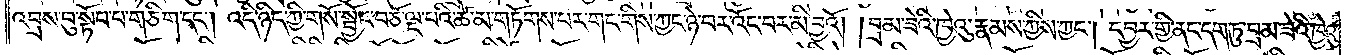འབྲས་བུ་སྟོབ་པ་གཅིག་དང༌། འདི་ཉིད་ཀྱི་གསོ་སྦྱོང་བཅོ་ལྔ་པའི་ཚེ་མ་གཏོགས་པར་གང་གིས་ཀྱང་ཉེ་བར་འོང་བར་མི་བྱའོ། །བྲམ་ཟེའི་ཁྱེའུ་རྣམས་ཀྱིས་ཀྱང༌། དབྱར་གྱི་ནང་དག་ཏུ་བྲམ་ཟེའི་ཁྱེའུ་
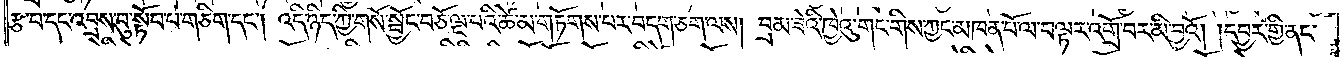རྩ་བ་དང་འབྲས་བུ་སྟོབ་པ་གཅིག་དང༌། འདི་ཉིད་ཀྱི་གསོ་སྦྱོང་བཅོ་ལྔ་པའི་ཚེ་མ་གཏོགས་པར་བདག་ཅག་ལས། བྲམ་ཟེའི་ཁྱེའུ་གང་གིས་ཀྱང་མཁན་པོ་ལ་བལྟར་འགྲོ་བར་མི་བྱའོ། །དབྱར་གྱི་ནང་
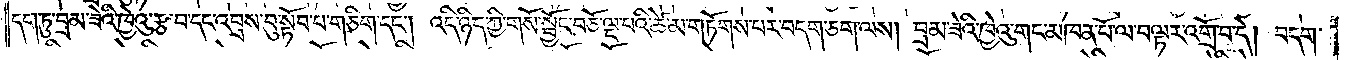དག་ཏུ་བྲམ་ཟེའི་ཁྱེའུ་རྩ་བ་དང་འབྲས་བུ་སྟོབ་པ་གཅིག་དང༌། འདི་ཉིད་ཀྱི་གསོ་སྦྱོང་བཅོ་ལྔ་པའི་ཚེ་མ་གཏོགས་པར་བདག་ཅག་ལས། བྲམ་ཟེའི་ཁྱེའུ་གང་མཁན་པོ་ལ་བལྟར་འགྲོ་བ་དེ། བདག་
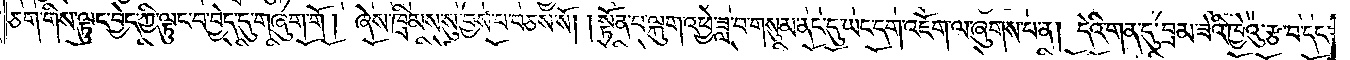ཅག་གིས་ལྟུང་བྱེད་ཀྱི་ལྟུང་བ་བྱེད་དུ་གཞུག་གོ ། ཞེས་ཁྲིམས་སུ་བྱས་པ་བཅས་སོ། །སྟོན་པ་ལྐུག་འཕྱེ་ཟླ་བ་གསུམ་ནང་དུ་ཡང་དག་འཇོག་ལ་ཞུགས་པ་ན། དེའི་གན་དུ་བྲམ་ཟེའི་ཁྱེའུ་རྩ་བ་དང་
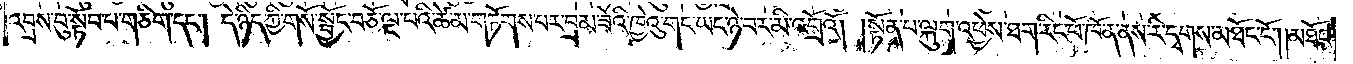འབྲས་བུ་སྟོབ་པ་གཅིག་དང༌། དེ་ཉིད་ཀྱི་གསོ་སྦྱོང་བཅོ་ལྔ་པའི་ཚེ་མ་གཏོགས་པར་བྲམ་ཟེའི་ཁྱེའུ་གང་ཡང་ཉེ་བར་མི་འགྲོའོ། །སྟོན་པ་ལྐུག་འཕྱེས་ཐག་རིང་པོ་ཁོ་ན་ནས་རི་དྭགས་མཐོང་ངོ༌། །མཐོང་
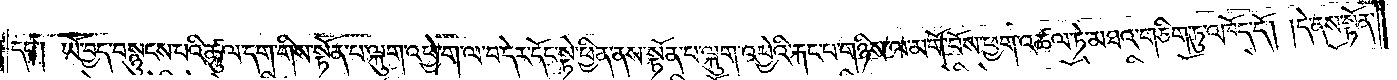དང༌། ཡོ་བྱད་བསྙུངས་པའི་ཚུལ་དག་གིས་སྟོན་པ་ལྐུག་འཕྱེ་ག་ལ་བ་དེར་དོང་སྟེ་ཕྱིན་ནས་སྟོན་པ་ལྐུག་འཕྱེའི་རྐང་པ་གཉིས་ལ་མགོ་བོས་ཕྱག་འཚལ་ཏེ་མཐའ་གཅིག་ཏུ་འཁོད་དོ། །དེ་ནས་སྟོན་
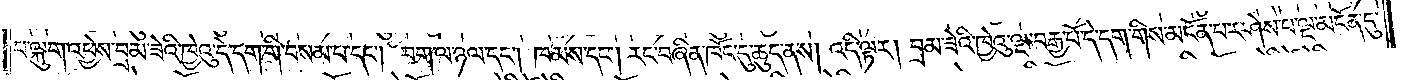པ་ལྐུག་འཕྱེས་བྲམ་ཟེའི་ཁྱེའུ་དེ་དག་གི་བསམ་པ་དང༌། བག་ལ་ཉལ་དང༌། ཁམས་དང༌། རང་བཞིན་ཁོང་དུ་ཆུད་ནས། འདི་ལྟར། བྲམ་ཟེའི་ཁྱེའུ་ལྔ་བརྒྱ་པོ་དེ་དག་གིས་མངོན་པར་ཤེས་པ་ལྔ་མངོན་དུ་
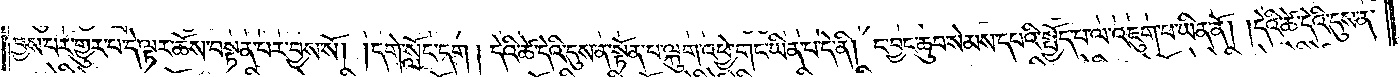བྱས་པར་གྱུར་པ་དེ་ལྟར་ཆོས་བསྟན་པར་བྱས་སོ། །དགེ་སློང་དག ། དེའི་ཚེ་དེའི་དུས་ན་སྟོན་པ་ལྐུག་འཕྱེ་གང་ཡིན་པ་དེ་ནི། ང་བྱང་ཆུབ་སེམས་དཔའི་སྤྱོད་པ་ལ་འཇུག་པ་ཡིན་ནོ། །དེའི་ཚེ་དེའི་དུས་ན་
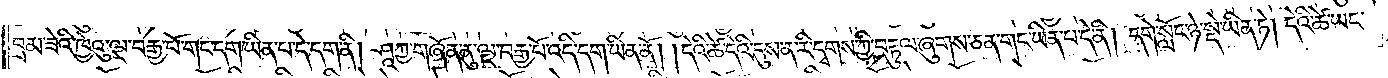བྲམ་ཟེའི་ཁྱེའུ་ལྔ་བརྒྱ་པོ་གང་དག་ཡིན་པ་དེ་དག་ནི། ཤཱཀྱ་གཞོན་ནུ་ལྔ་བརྒྱ་པོ་འདི་དག་ཡིན་ནོ། །དེའི་ཚེ་དེའི་དུས་ན་རི་དྭགས་ཀྱི་བརྟུལ་ཞུགས་ཅན་གང་ཡིན་པ་དེ་ནི། དགེ་སློང་ཉེ་སྡེ་ཡིན་ཏེ། དེའི་ཚེ་ཡང་
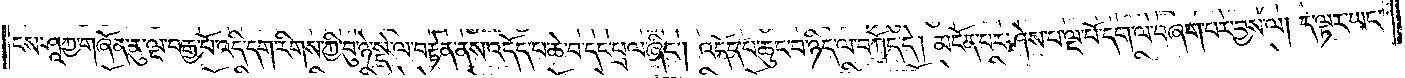ངས་ཤཱཀྱ་གཞོན་ནུ་ལྔ་བརྒྱ་པོ་འདི་དག་རིགས་ཀྱི་བུ་ཉེ་སྡེ་ལ་བརྟེན་ནས་འདོད་པ་ཆེ་བ་དང་ཕྲལ་ཞིང༌། འདོད་པ་ཆུང་བ་ཉིད་ལ་བཀོད་དེ། མངོན་པར་ཤེས་པ་ལྔ་པོ་དག་ལ་བཞག་པར་བྱས་ལ། ད་ལྟར་ཡང་
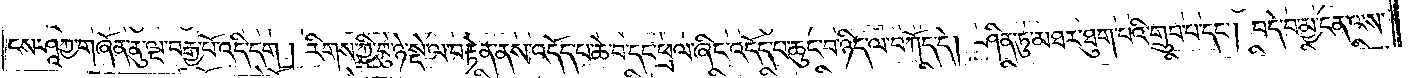ངས་ཤཱཀྱ་གཞོན་ནུ་ལྔ་བརྒྱ་པོ་འདི་དང༌། རིགས་ཀྱི་བུ་ཉེ་སྡེ་ལ་བརྟེན་ནས་འདོད་པ་ཆེ་བ་དང་ཕྲལ་ཞིང་འདོད་པ་ཆུང་བ་ཉིད་ལ་བཀོད་དེ། ཤིན་ཏུ་མཐར་ཐུག་པའི་གྲུབ་པ་དང༌། བདེ་བ་མྱ་ངན་ལས་
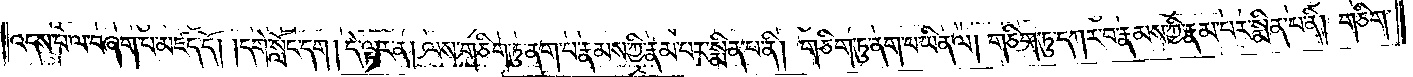འདས་པ་ལ་བཞག་པ་མཛད་དོ། །དགེ་སློང་དག ། དེ་ལྟར་ན། ལས་གཅིག་ཏུ་ནག་པ་རྣམས་ཀྱི་རྣམ་པར་སྨིན་པ་ནི། གཅིག་ཏུ་ནག་པ་ཡིན་ལ། གཅིག་ཏུ་དཀར་བ་རྣམས་ཀྱི་རྣམ་པར་སྨིན་པ་ནི། གཅིག་
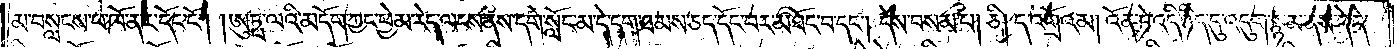མ་བསླངས་པ་ཁོ་ནར་དོང་ངོ༌། །ཨུཏྤ་ལའི་མདོག་ཀྱང་ཕྱེ་མ་རེད་ལངས་ནས་དགེ་སློང་མ་དེ་དག་ཐམས་ཅད་དོང་བར་མཐོང་བ་དང༌། དེས་བསམ་པ། ཅི། ད་འགྲོའམ། འོན་ཏེ་འདི་ཉིད་དུ་འདུག་སྙམ་ནས་དེ་དེ་
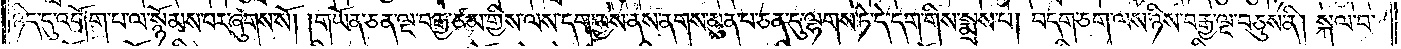ཉིད་དུ་འགོག་པ་ལ་སྙོམས་པར་ཞུགས་སོ། །གཡོན་ཅན་ལྔ་བརྒྱ་རྩམ་གྱིས་ལས་དག་བྱས་ནས་ནགས་མུན་པ་ཅན་དུ་ལྷགས་ཏེ་དེ་དག་གིས་སྨྲས་པ། བདག་ཅག་ལས་ཉིས་བརྒྱ་ལྔ་བཅུས་ནི། སྐལ་བ་
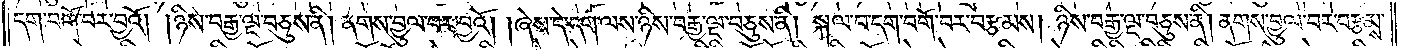དག་བགོ་བར་བྱའོ། །ཉིས་བརྒྱ་ལྔ་བཅུས་ནི། ནགས་བྱུལ་བར་བྱའོ། །ཞེས་དེ་དག་ལས་ཉིས་བརྒྱ་ལྔ་བཅུས་ནི། སྐལ་བ་དག་བགོ་བར་བརྩམས། ཉིས་བརྒྱ་ལྔ་བཅུས་ནི། ནགས་བྱུལ་བར་བརྩམས་
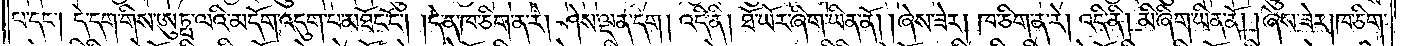པ་དང༌། དེ་དག་གིས་ཨུཏྤ་ལའི་མདོག་འདུག་པ་མཐོང་ངོ༌། །དེ་ན་ཁ་ཅིག་ན་རེ། ཤེས་ལྡན་དག །འདི་ནི། ཐོ་ཡོར་ཞིག་ཡིན་ནོ། །ཞེས་ཟེར། ཁ་ཅིག་ན་རེ། འདི་ནི། མི་ཞིག་ཡིན་ནོ། །ཞེས་ཟེར། ཁ་ཅིག་
